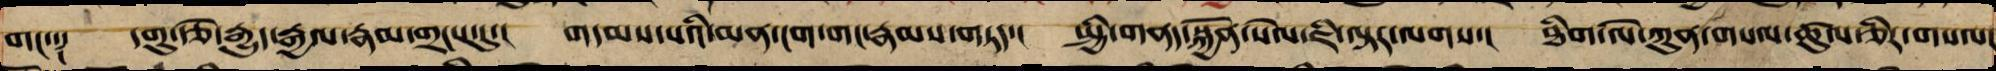གང་༑ དགུ་རྩེ་རྒྱུད་རྒྱལ་རྣམ་གྲངས་དུ་། གདམས་པའི་མན་ངག་གང་རྣམས་གཏད་། སྤྱི་གནད་སྐྱོན་སེལ་ཇི་ལྟར་ལགས་། ཐིག་ལེ་ཀུན་གསལ་ཚུལ་ཅིར་གསལ་
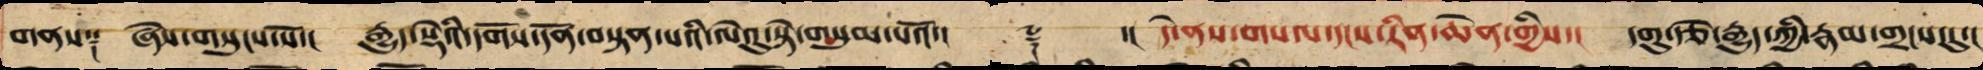གནས༑ ཞེས་གསུངས་སོ་། རྒྱུད་སྡེའི་དགོས་དོན་བསྟན་པའི་ལེའུ་སྟེ་གསུམ་པའོ་།། ༈ ་། དེ་ནས་གསལ་དངས་རིན་ཆེན་གྱིས་། དགུ་རྩེ་རྒྱུད་ཀྱི་རྣམ་གྲངས་དུ་།
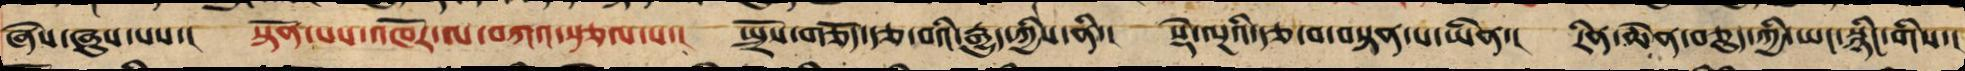ཞེས་ཞུས་པས་། སྟོན་པས་འཁོར་ལ་བཀའ་སྩལ་པ་། སྤྲོས་གཅོད་རྩ་བའི་རྒྱུད་ཀྱིས་ནི་། སྡེ་ལྔའི་རྩ་བ་བསྟན་པ་ཡིན་། རིན་ཆེན་བཅུད་ཀྱི་ཡང་སྙིང་གིས་།
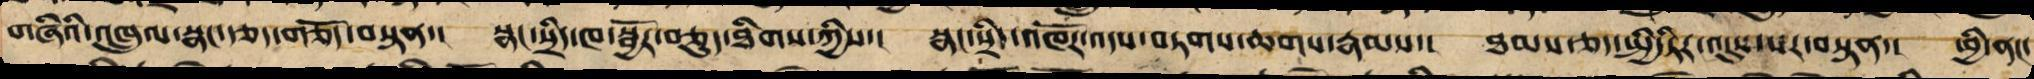གཞིའི་འཁྲུལ་སྣང་རྩད་གཅོད་བསྟན་། སྣང་སྲིད་ཁ་སྦྱོར་བཅུད་ཐིགས་ཀྱིས་། སྣང་སྲིད་འཁོར་འདས་བཏགས་ཆགས་རྣམས་། ཐམས་ཅད་སྤྱི་ཏིར་འདུས་པར་བསྟན་། ཕྱི་ནང་
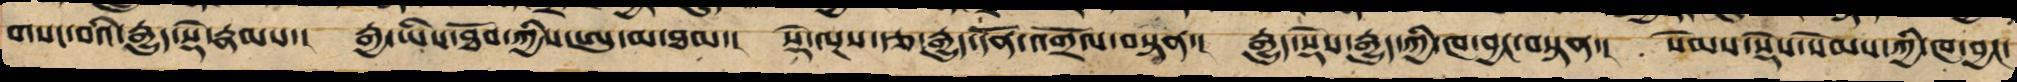གསང་བའི་རྒྱུད་སྡེ་རྣམས་། རྒྱ་ཡིས་ཐོབ་ཀྱིས་ཨུ་མ་ཐམ་། སྡེ་ལྔས་རྩ་རྒྱུད་དོན་འགྲོལ་བསྟན་། རྒྱུད་སྡེས་རྒྱུད་ཀྱི་ཁ་བྱང་བསྟན་། སེམས་སྡེས་སེམས་ཀྱི་ཁ་བྱང་
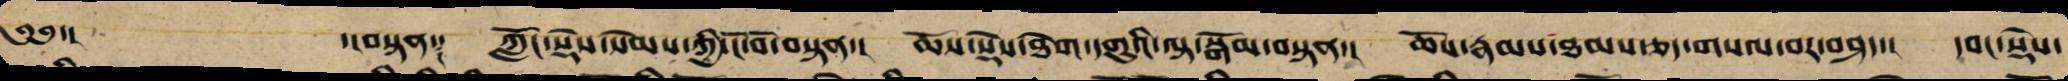༄༅་། ་།བསྟན༑ ཀློང་སྡེས་སེམས་ཀྱི་ངོ་བོ་བསྟན་། ཆོས་སྡེས་ཐེག་དགུའི་ལྟ་སྒོམ་བསྟན་། ཆོས་རྣམས་ཐམས་ཅད་གསལ་བར་བཤད་། དབང་སྡེས་
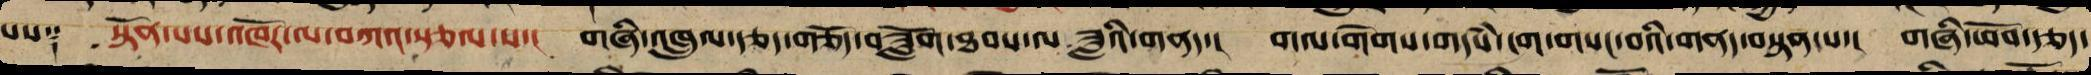པས༑ སྟོན་པས་འཁོར་ལ་བཀའ་སྩལ་པ་། གཞི་འཁྲུལ་རྩད་གཅོད་བཟློག་ཐབས་ལ ཟླའི་གནད་། གལ་འགེགས་གདཾས་ངག་གསང་བའི་གནད་བསྟན་པ་། གཞི་ཕོབ་རྩད་
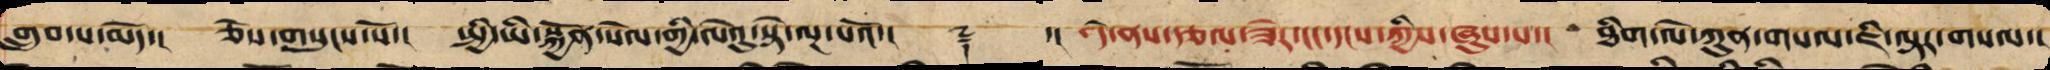གྲུབ་པ་མེད་། ཅེས་གསུངས་སོ་། སྤྱི་ཡི་སྐྱོན་སེལ་གྱི་ལེའུ་སྟེ་ལྔ་པའོ་།། ༈ ་།། དེ་ནས་རྩལ་ཟེར་ངང་དངས་ཀྱིས་ཞུས་པ་། ཐིག་ལེ་ཀུན་གསལ་ཇི་ལྟར་གསལ་།
